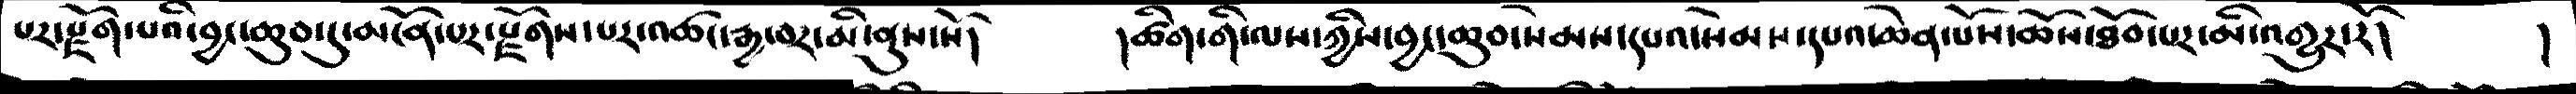པར་རྫོག་པའི་བྱང་ཆུབ་དུ་མངོན་པར་རྫོགས་པར་འཚང་རྒྱ་བར་མི་ནུས་སོ།      །ཚིག་གི་ལས་ཀྱིས་བྱང་ཆུབ་སེམས་དཔའ་སེམས་དཔའ་ཆེན་པོས་ཆོས་ཐོབ་པར་མི་འགྱུར་རོ།    །
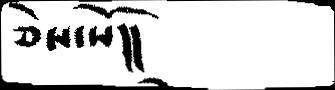ཅེས་སོ།།
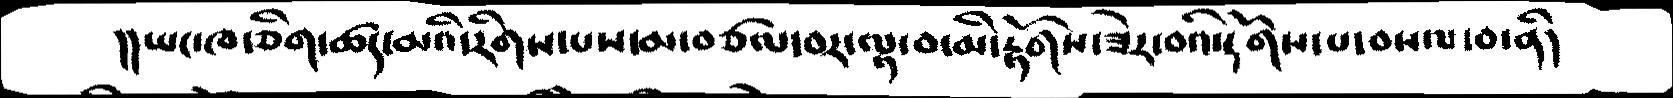།།ཡང་ཁ་ཅིག་ཚད་མའི་རིགས་པས་མ་བཙལ་བར་ལྟ་བ་མི་རྟོགས་ཟེར་བའི་དོགས་པ་བསལ་བ་ནི།
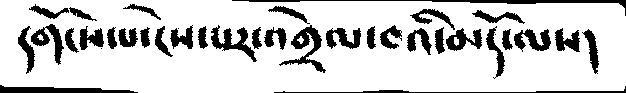དགོངས་པ་ངེས་པར་འགྲེལ་བའི་མདོ་ལས།
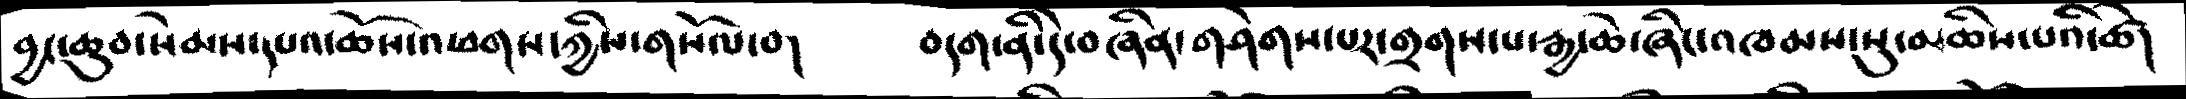བྱང་ཆུབ་སེམས་དཔའ་ཆོས་འཕགས་ཀྱིས་གསོལ་བ།  བདག་ནི་དེ་བཞིན་གཤེགས་པར་གྲགས་པ་རྒྱ་ཆེ་ཞིང་འཁམས་སུ་མཆིས་པའི་ཚེ།
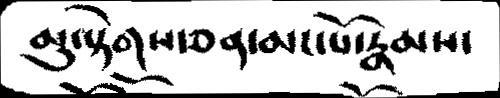མུ་སྟེགས་ཅན་མང་པོ་རྣམས་
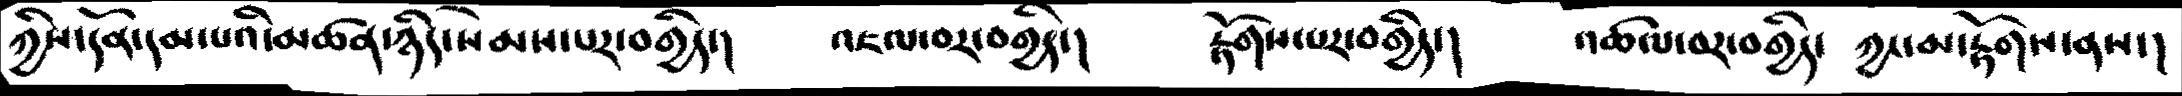ཀྱིས་དོན་དམ་པའི་མཚན་ཉིད་སེམས་པར་བགྱིད་།    འཇལ་བར་བགྱིད་།   རྟོགས་པར་བགྱིད་།     འཚལ་བར་བགྱིད་   ཀྱང་མ་རྟོགས་ནས་།
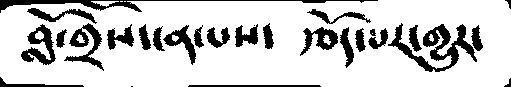བློ་གྲོས་ངན་པས་  རྩོད་པར་གྱུར་
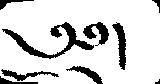༄༅།
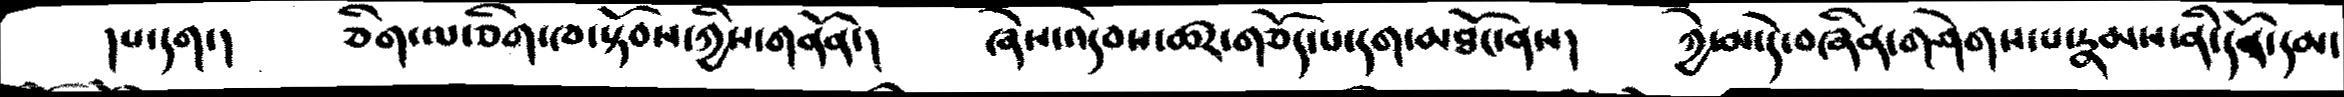།པ་དག་།  ཅིག་ལ་ཅིག་ཁ་སྟོབས་ཀྱིས་གནོན་།  ཞེས་འདེབས་ཚར་གཅོད་པ་དག་མཐོང་ནས།  ཀྱེ་མ་དེ་བཞིན་གཤེགས་པ་རྣམས་ནི་དོན་དམ་
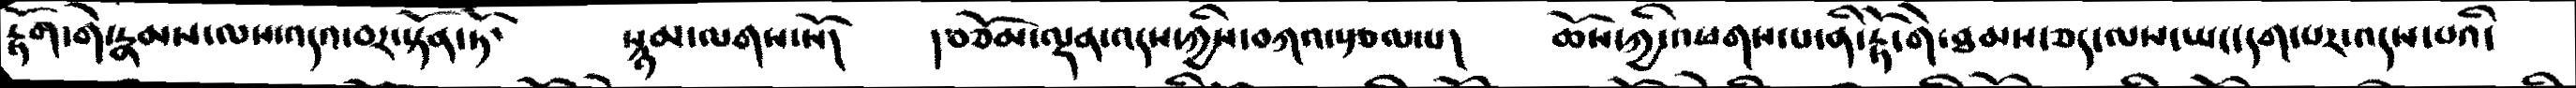རྟོག་གེ་རྣམས་ལས་འདའ་བར་རྟོན་ཏོ་    རྙམ་ལགས་སོ།  །བཅོམ་ལྡན་འདས་ཀྱིས་བཀའ་སྩལ་པ།  ཆོས་ཀྱི་འཕགས་པ་ནི་རྟོ་གེ་ཐམས་ཅད་ལས་ཡང་དག་པར་འདས་པའི་
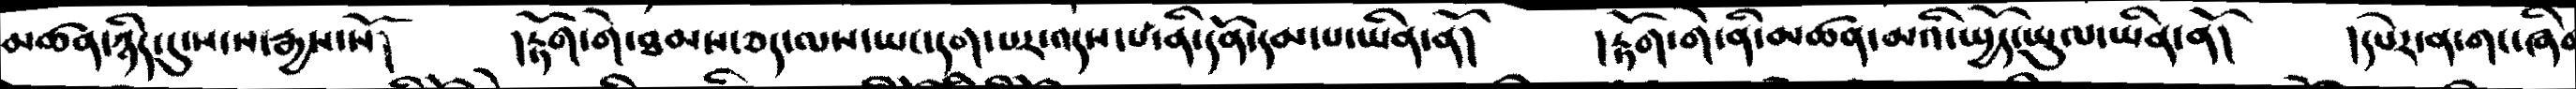མཚན་ཉིད་དུ་སངས་རྒྱས་སོ།  །རྟོག་གེ་ཐམས་ཅད་ལས་ཡང་དག་པར་འདས་པ་ནི་དོན་དམ་ཡིན་ནོ།  །རྟོག་གེ་ནི་མཚན་མའི་སྤྱོད་ཡུལ་ཡིན་ནོ།  །དཔེར་ན་གང་ཞི
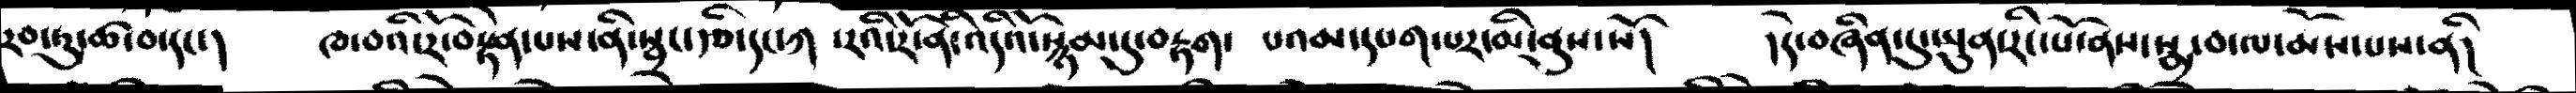རབ་ཏུ་ཚ་བ་དང་།  ཁ་བའི་རོ་བསྟེན་པས་ནི་སྦྲང་རྩི་དང་ཀ ་རའི་རོ་ནི་འདིའོ་སྙམ་དུ་བརྟག་  པའམ་དཔག་པར་མི་ནུས་སོ།   །དེ་བཞིན་དུ་ཡུན་རིང་པོ་ནས་སྨྲ་བ་ལ་མོས་པས་ནི།
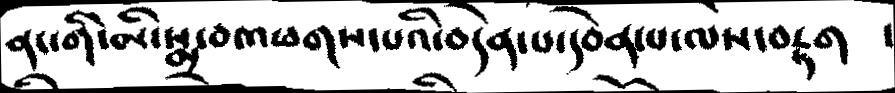ནང་གི་མི་སྨྲ་བ་འཕགས་པའི་བདེན་པ་དབེན་པ་ལས་བརྟག
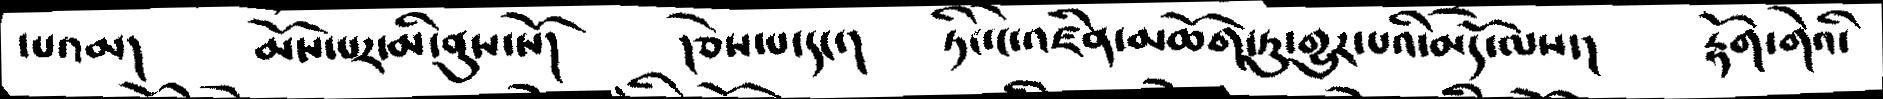།པའམ།  མོས་པར་མི་ནུས་སོ།  །ཅེས་པ་དང་།  ཏིང་ངེ་འཛིན་མཆོག་ཏུ་གྱུར་པའི་མདོ་ལས་།  རྟོག་གེའི་
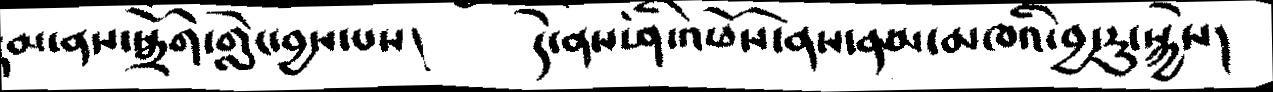མ་ནས་སྒྲོག་གླེང་བྱས་པས།  དེ་ནས་ནི་འཕོས་ནས་ནམ་མཁའི་བྱ་རུ་སྐྱེས།
